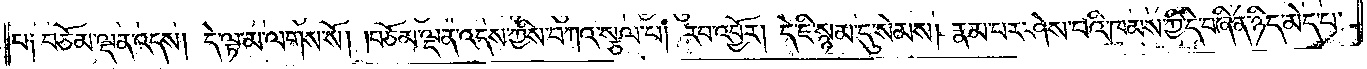པ༑ བཅོམ་ལྡན་འདས། དེ་ལྟ་མ་ལགས་སོ། །བཅོམ་ལྡན་འདས་ཀྱིས་བཀའ་སྩལ་པ། རབ་འབྱོར། དེ་ཇི་སྙམ་དུ་སེམས། རྣམ་པར་ཤེས་པའི་ཁམས་ཀྱི་དེ་བཞིན་ཉིད་མེད་པ་
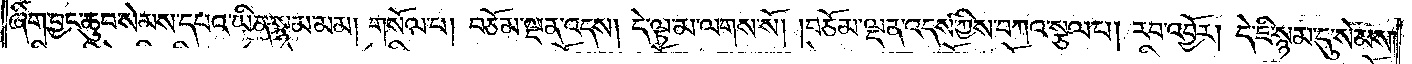ཞིག་བྱང་ཆུབ་སེམས་དཔའ་ཡིན་སྙམ་མམ། གསོལ་པ། བཅོམ་ལྡན་འདས། དེ་ལྟ་མ་ལགས་སོ། །བཅོམ་ལྡན་འདས་ཀྱིས་བཀའ་སྩལ་པ། རབ་འབྱོར། དེ་ཇི་སྙམ་དུ་སེམས་
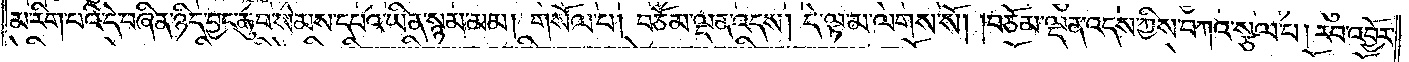མ་རིག་པའི་དེ་བཞིན་ཉིད་བྱང་ཆུབ་སེམས་དཔའ་ཡིན་སྙམ་མམ། གསོལ་པ། བཅོམ་ལྡན་འདས། དེ་ལྟ་མ་ལགས་སོ། །བཅོམ་ལྡན་འདས་ཀྱིས་བཀའ་སྩལ་པ། རབ་འབྱོར་
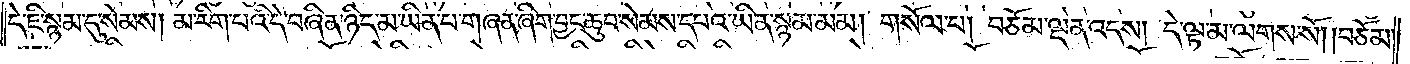དེ་ཇི་སྙམ་དུ་སེམས། མ་རིག་པའི་དེ་བཞིན་ཉིད་མ་ཡིན་པ་གཞན་ཞིག་བྱང་ཆུབ་སེམས་དཔའ་ཡིན་སྙམ་མམ། གསོལ་པ། བཅོམ་ལྡན་འདས། དེ་ལྟ་མ་ལགས་སོ། །བཅོམ་
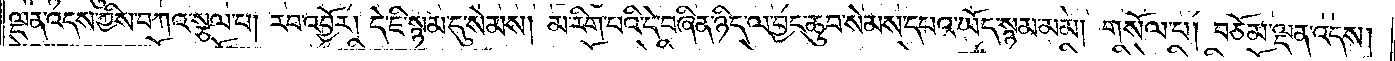ལྡན་འདས་ཀྱིས་བཀའ་སྩལ་པ། རབ་འབྱོར། དེ་ཇི་སྙམ་དུ་སེམས། མ་རིག་པའི་དེ་བཞིན་ཉིད་ལ་བྱང་ཆུབ་སེམས་དཔའ་ཡོད་སྙམ་མམ། གསོལ་པ། བཅོམ་ལྡན་འདས།
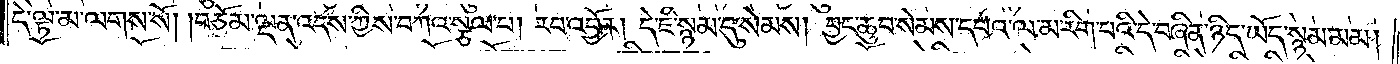དེ་ལྟ་མ་ལགས་སོ། །བཅོམ་ལྡན་འདས་ཀྱིས་བཀའ་སྩལ་པ། རབ་འབྱོར། དེ་ཇི་སྙམ་དུ་སེམས། བྱང་ཆུབ་སེམས་དཔའ་ལ་མ་རིག་པའི་དེ་བཞིན་ཉིད་ཡོད་སྙམ་མམ།
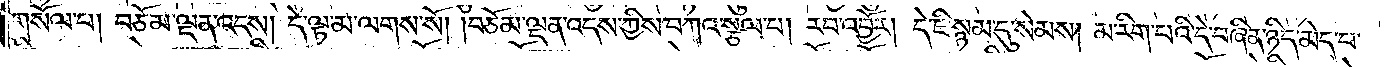གསོལ་པ། བཅོམ་ལྡན་འདས། དེ་ལྟ་མ་ལགས་སོ། །བཅོམ་ལྡན་འདས་ཀྱིས་བཀའ་སྩལ་པ། རབ་འབྱོར། དེ་ཇི་སྙམ་དུ་སེམས། མ་རིག་པའི་དེ་བཞིན་ཉིད་མེད་པ་
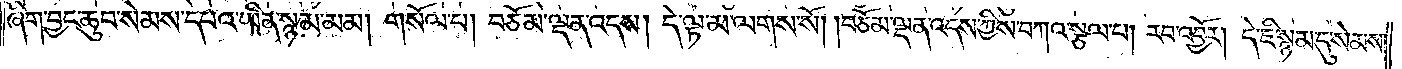ཞིག་བྱང་ཆུབ་སེམས་དཔའ་ཡིན་སྙམ་མམ། གསོལ་པ། བཅོམ་ལྡན་འདས། དེ་ལྟ་མ་ལགས་སོ། །བཅོམ་ལྡན་འདས་ཀྱིས་བཀའ་སྩལ་པ། རབ་འབྱོར། དེ་ཇི་སྙམ་དུ་སེམས་
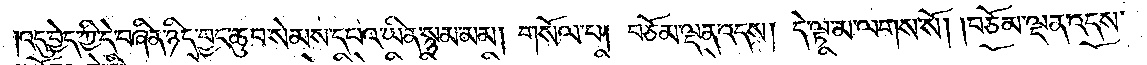འདུ་བྱེད་ཀྱི་དེ་བཞིན་ཉིད་བྱང་ཆུབ་སེམས་དཔའ་ཡིན་སྙམ་མམ། གསོལ་པ། བཅོམ་ལྡན་འདས། དེ་ལྟ་མ་ལགས་སོ། །བཅོམ་ལྡན་འདས་
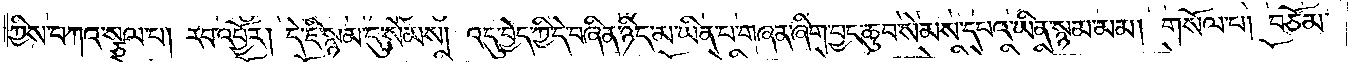ཀྱིས་བཀའ་སྩལ་པ། རབ་འབྱོར། དེ་ཇི་སྙམ་དུ་སེམས། འདུ་བྱེད་ཀྱི་དེ་བཞིན་ཉིད་མ་ཡིན་པ་གཞན་ཞིག་བྱང་ཆུབ་སེམས་དཔའ་ཡིན་སྙམ་མམ། གསོལ་པ། བཅོམ་
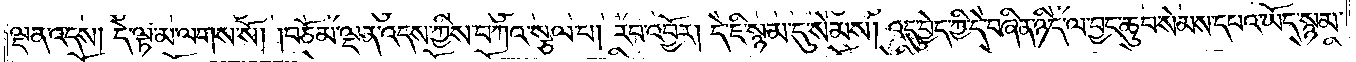ལྡན་འདས། དེ་ལྟ་མ་ལགས་སོ། །བཅོམ་ལྡན་འདས་ཀྱིས་བཀའ་སྩལ་པ། རབ་འབྱོར། དེ་ཇི་སྙམ་དུ་སེམས། འདུ་བྱེད་ཀྱི་དེ་བཞིན་ཉིད་ལ་བྱང་ཆུབ་སེམས་དཔའ་ཡོད་སྙམ་
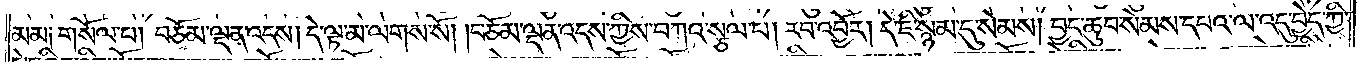མམ༑ གསོལ་པ། བཅོམ་ལྡན་འདས། དེ་ལྟ་མ་ལགས་སོ། །བཅོམ་ལྡན་འདས་ཀྱིས་བཀའ་སྩལ་པ། རབ་འབྱོར། དེ་ཇི་སྙམ་དུ་སེམས། བྱང་ཆུབ་སེམས་དཔའ་ལ་འདུ་བྱེད་ཀྱི་
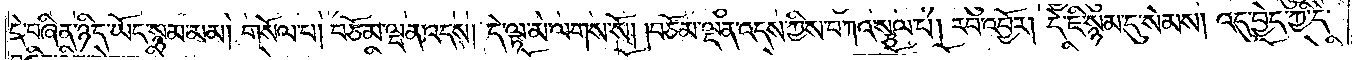དེ་བཞིན་ཉིད་ཡོད་སྙམ་མམ། གསོལ་པ། བཅོམ་ལྡན་འདས། དེ་ལྟ་མ་ལགས་སོ། །བཅོམ་ལྡན་འདས་ཀྱིས་བཀའ་སྩལ་པ། རབ་འབྱོར། དེ་ཇི་སྙམ་དུ་སེམས། འདུ་བྱེད་ཀྱི་དེ་
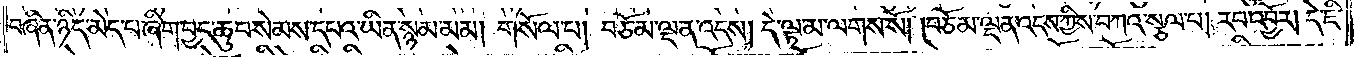བཞིན་ཉིད་མེད་པ་ཞིག་བྱང་ཆུབ་སེམས་དཔའ་ཡིན་སྙམ་མམ། གསོལ་པ། བཅོམ་ལྡན་འདས། དེ་ལྟ་མ་ལགས་སོ། །བཅོམ་ལྡན་འདས་ཀྱིས་བཀའ་སྩལ་པ། རབ་འབྱོར། དེ་ཇི་
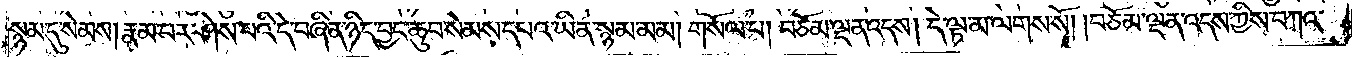སྙམ་དུ་སེམས། རྣམ་པར་ཤེས་པའི་དེ་བཞིན་ཉིད་བྱང་ཆུབ་སེམས་དཔའ་ཡིན་སྙམ་མམ། གསོལ་པ། བཅོམ་ལྡན་འདས། དེ་ལྟ་མ་ལགས་སོ། །བཅོམ་ལྡན་འདས་ཀྱིས་བཀའ་
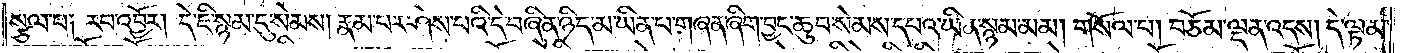སྩལ་པ༑ རབ་འབྱོར། དེ་ཇི་སྙམ་དུ་སེམས། རྣམ་པར་ཤེས་པའི་དེ་བཞིན་ཉིད་མ་ཡིན་པ་གཞན་ཞིག་བྱང་ཆུབ་སེམས་དཔའ་ཡིན་སྙམ་མམ། གསོལ་པ། བཅོམ་ལྡན་འདས། དེ་ལྟ་མ་
